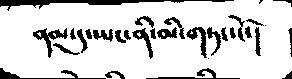ནམ་དུ་ཡང་ནི་མི་གཏང་ངོ་།
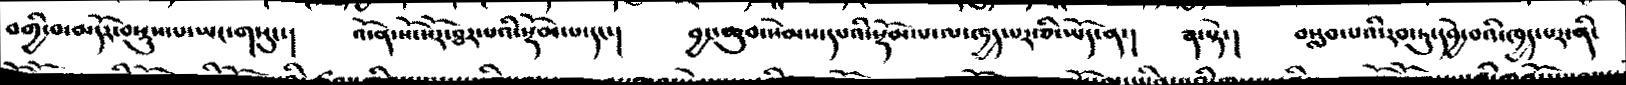བགྱི་མ་མདོར་བསྡུས་པ་ཡང་གསུང་།  འོ་ན་སོ་སོར་ཐར་པའི་སྡོམ་པ་དང་།  བྱང་ཆུབ་སེམས་དཔའི་སྡོམ་པ་ལ་ཁྱད་པར་ཅི་ཡོད་ན་།  ༢་སྟེ་།  བསླབ་པའི་རབ་ཏུ་དབྱེ་བའི་ཁྱད་པར་ནི་
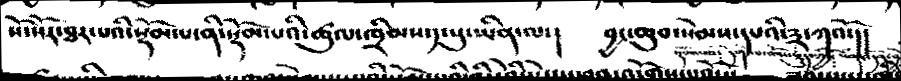སོ་སོར་ཐར་པའི་སྡོམ་པ་ནི་སྡོམ་པའི་ཚུལ་ཁྲིམས་༡་སུ་ཡིན་ལ་།   བྱང་ཆུབ་སེམས་དཔའི་༣་ཀའོ་།།
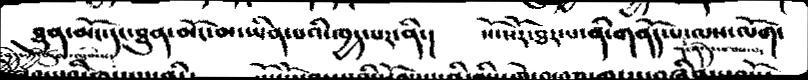ཐུན་མོང་དང་ཐུན་མོང་མ་ཡིན་པའི་ཁྱད་པར་ནི་།   སོ་སོར་ཐར་པ་ནི་གནོད་པ་ལས་ལོག་
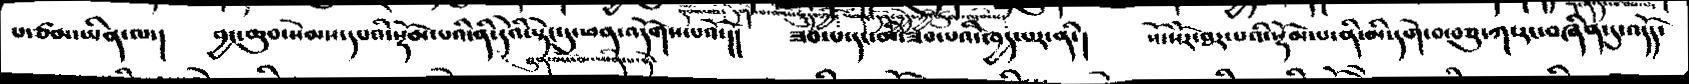པ་ཙམ་ཡིན་ལ་།      བྱང་ཆུབ་སེམས་དཔའི་སྡོམ་པའི་ནི་དེའི་སྟེང་དུ་ཕན་འདོགས་པའོ་།།  ཟབ་པ་དང་མ་ཟབ་པའི་ཁྱད་པར་ནི་།  སོ་སོར་ཐར་པའི་སྡོམ་པ་ནི་མི་དགེ་བ་བཅུ་ཀ་རང་བཞིན་དུ་འདོད་
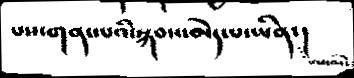པས་གནས་པའི་སྐབས་མེད་པ་ཡིན་།
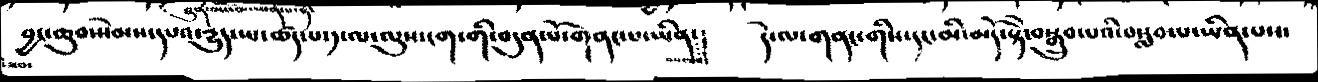བྱང་ཆུབ་སེམས་དཔའ་དྱུད་པ་ཚད་པ་༡་ལ་ལུས་ངག་གི་བདུན་པོ་གནང་པ་ཡིན་།  དེ་ལ་གནང་གིས་དང་མི་མདོ་སྟེ་བསྒྲུབ་པའི་བསླབ་པ་ཡིན་པས་
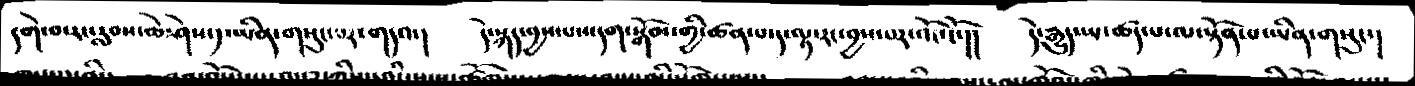དགེ་བར་རླབས་ཆེ་ཤེས་༡་ཡིན་གསུང་པར་གདའ་།  དེ་སྐད་བྱས་པས་དག་སྒོམ་གྱི་ཚན་པ་ད་ལྟ་རང་བྱས་པར་འོང་ངོ་།།  དེ་རྒྱུད་པ་ཚད་པ་ལ་སྟོན་པ་ཡིན་གསུང་།
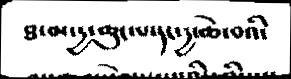ཐ་མ་དྱ་ཆུང་པ་དང་དྱ་ཆེ་བའི་
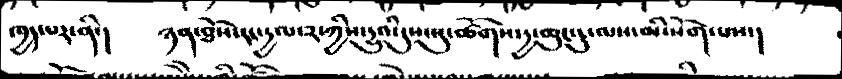ཁྱད་པར་ནི་།  ཉན་ཐོས་རང་དྱལ་༢་ཀྱིས་དྱུའི་དུས་སུ་ཚོགས་དྱ་ཆུང་ངུ་ལས་མི་སོག་པས་།
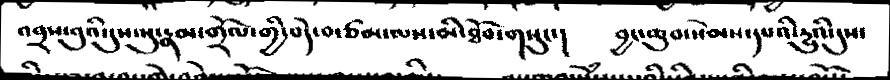འབྲས་བུའི་དུས་སུ་རྣམ་གྲོལ་གྱི་བདེ་བ་ཙམ་ལས་མི་ཐོབ་གསུང་།  བྱང་ཆུབ་སེམས་དཔའི་དྱུའི་དུས་
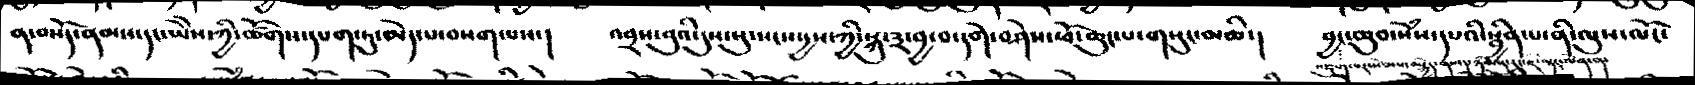ན་བསོད་ནམས་དང་ཡེེས་ཀྱི་ཚོགས་དཔག་ཏུ་མེད་པ་བསགས་པས་།  འབྲས་བུའི་དུས་སུ་སངས་དྱས་ཀྱི་སྐུ་༣་བྱ་བ་དགེ་བཤེས་ཕོ་ཆུང་པ་གསུང་མཆི་།  བྱང་ཆུབ་སེཾས་དཔའི་སྦྱིན་པ་ནི་ལུས་ལོང་
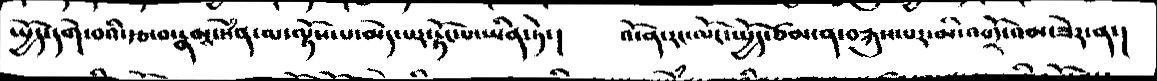སྤྱོད་དགེ་་བའི་རྩ་བ་རྣམ་སེཾན་ལ་ལྟོས་པ་མེད་པར་རྟོང་པ་ཡིན་ཏེ་།  འོ་ན་རང་ལོང་སྤྱོད་ཙམ་ན་བརྐུས་པར་མི་འགྲོ་འམ་ཟེར་ན་།
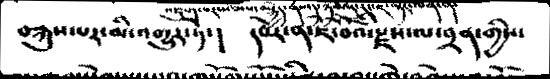བརྐུས་པར་མི་འགྱུར་ཏེ་།  དཔེར་ན་ཇོ་བོའི་རྫས་ལ་བྲན་གྱིས་
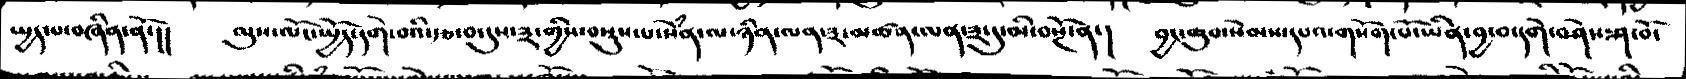སྤྱད་པ་བཞིན་ནོ་།།   ལུས་ལོང་སྤྱོད་དགེ་བའི་རྩ་་བ་དུས་༣་གྱིས་བསྡུས་པ་སེཾན་ལ་ཉིན་ལན་༣་མཚན་ལན་༣་དུ་མི་བསྔོ་ན་།  བྱང་ཆུབ་སེམས་དཔའ་གསོག་པོ་ཡིན་བྱ་བ་དགེ་བཤེས་ཤ་བོ་་
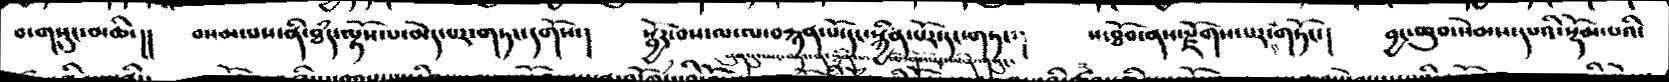བ་གསུང་མཆི་།།   བསམ་པས་ནི་ཐཾད་ལྟོས་པ་མེད་པར་གཏང་དགོས་།  སྦྱོར་བས་ལ་ལ་བརྙན་པོ་དང་སྐྱིན་པོར་དང་གཏང༴། ས་ཐོབ་ནས་རྫོགས་པར་གཏོང་།   བྱང་ཆུབ་སེམས་དཔའི་སྡོམ་པའི་
